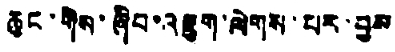ཆུང་གིས་ཞིབ་འཇུག་ལེགས་པར་བྱས
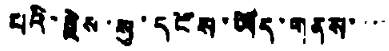པའི་རྗེས་སུ་དངོས་ཡོད་གནས་་་་
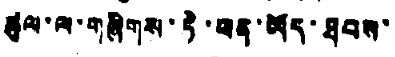ཚུལ་ལ་གཞིགས་ཏི་ཕན་ཡོད་ཐབས་
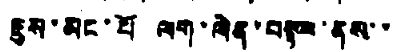ཇུས་མང་པོ ལག་ལེན་བསྟར་ནས་་
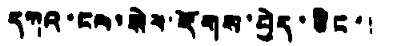དཀའ་ངལ་སེལ་རོགས་བྱེད་ཅིང་།
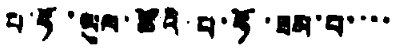པ་ཧོ་ཡུལ་ཚོའི་པ་ཧོ་ཟམ་པ་་་་
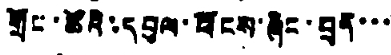གྲོང་ཚོའི་དབུལ་ཕོངས་ཞིང་བྲན་་་
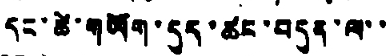དང་ཚེ་གཡོག་དུད་ཚང་བདུན་ལ་་
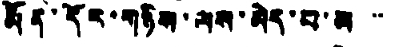རྨོན་དོར་གཉིས་ལས་མེད་པ་མ་་་
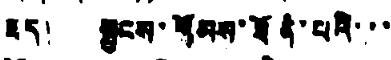ཟད། སྦྱངས་གོམས་ཐོན་པའི་་་
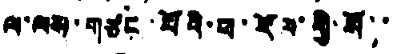ལ་ལས་གཙང་པོའི་ཕ་རོལ་གྱི་སོ་་
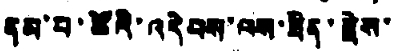ནམ་པ་ཚོའི་འདེབས་ལས་ཟིན་རྗེས་
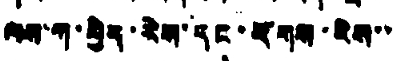ལས་ཀ་བྱེད་རེས་དང་རོགས་རེས་་
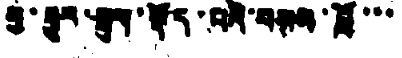བྱ་རྒྱུར་སྒུད་སྡོད་པའི་བསམ་བློ་་་
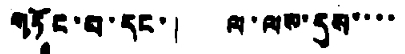གཏོང་བ་དང་། ལ་ལས་དུས་་་་
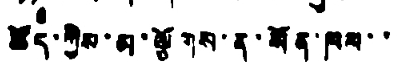ཚོད་ཀྱིས་མ་ལྕོགས་ན་སོན་ཁལ་་
